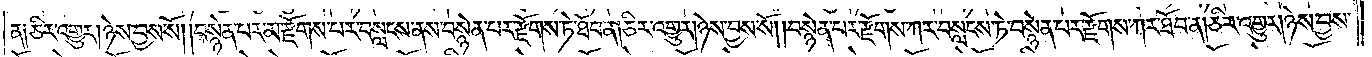ན༑ ཅིར་འགྱུར། ཉེས་བྱས་སོ། །བསྙེན་པར་མ་རྫོགས་པར་བསླངས་ནས་བསྙེན་པར་རྫོགས་ཏེ་ཐོབ་ན། ཅིར་འགྱུར། ཉེས་བྱས་སོ། །བསྙེན་པར་རྫོགས་ཀར་བསླངས་ཏེ་བསྙེན་པར་རྫོགས་ཀར་ཐོབ་ན། ཅིར་འགྱུར། ཉེས་བྱས་
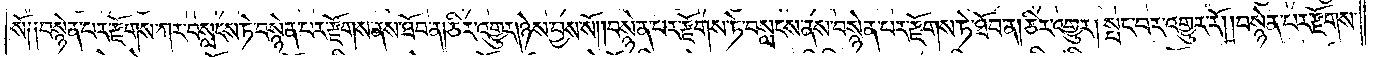སོ༑ ༑བསྙེན་པར་རྫོགས་ཀར་བསླངས་ཏེ་བསྙེན་པར་རྫོགས་ནས་ཐོབ་ན། ཅིར་འགྱུར། ཉེས་བྱས་སོ། །བསྙེན་པར་རྫོགས་ཏེ་བསླངས་ནས་བསྙེན་པར་རྫོགས་ཏེ་ཐོབ་ན། ཅིར་འགྱུར། སྤང་བར་འགྱུར་རོ། །བསྙེན་པར་རྫོགས་
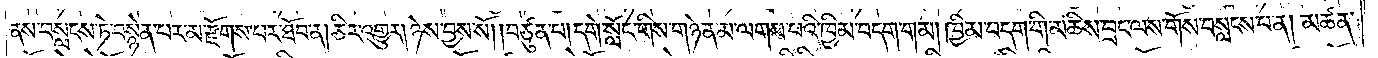ནས་བསླངས་ཏེ་བསྙེན་པར་མ་རྫོགས་པར་ཐོབ་ན། ཅིར་འགྱུར། ཉེས་བྱས་སོ། །བཙུན་པ། དགེ་སློང་གིས་གཉེན་མ་ལགས་པའི་ཁྱིམ་བདག་གམ། ཁྱིམ་བདག་གི་མཆིས་བྲང་ལས་གོས་བསླངས་པ་ན། མཚན་
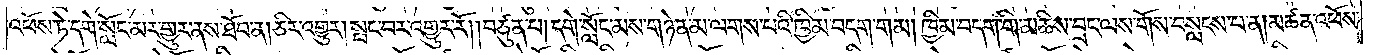འཕོས་ཏེ་དགེ་སློང་མར་གྱུར་ནས་ཐོབ་ན། ཅིར་འགྱུར། སྤང་བར་འགྱུར་རོ། །བཙུན་པ། དགེ་སློང་མས་གཉེན་མ་ལགས་པའི་ཁྱིམ་བདག་གམ། ཁྱིམ་བདག་གི་མཆིས་བྲང་ལས་གོས་བསླངས་པ་ན། མཚན་འཕོས་
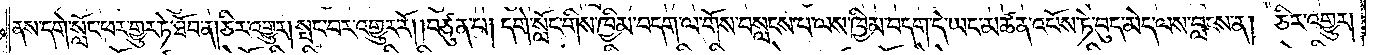ནས་དགེ་སློང་ཕར་གྱུར་ཏེ་ཐོབ་ན། ཅིར་འགྱུར། སྤང་བར་འགྱུར་རོ། །བཙུན་པ། དགེ་སློང་གིས་ཁྱིམ་བདག་ལ་གོས་བསླངས་པ་ལས་ཁྱིམ་བདག་དེ་ཡང་མཚན་འཕོས་ཏེ་བུད་མེད་ལས་བླངས་ན། ཅིར་འགྱུར།
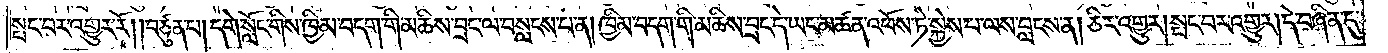སྤང་བར་འགྱུར་རོ། །བཙུན་པ། དགེ་སློང་གིས་ཁྱིམ་བདག་གིས་མཆིས་བྲང་ལ་བསླངས་པ་ན། ཁྱིམ་བདག་གིས་མཆིས་བྲང་དེ་ཡང་མཚན་འཕོས་ཏེ་སྐྱེས་པ་ལས་བླངས་ན། ཅིར་འགྱུར། སྤང་བར་འགྱུར། །དེ་བཞིན་དུ་
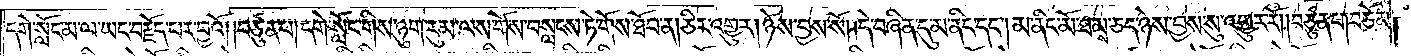དགེ་སློང་མ་ལ་ཡང་བརྗོད་པར་བྱའོ། །བཙུན་པ། དགེ་སློང་གིས་ཉུག་རུམ་ལས་གོས་བསླངས་ཏེ་གོས་ཐོབ་ན། ཅིར་འགྱུར། ཉེས་བྱས་སོ། །དེ་བཞིན་དུ་མ་ནིང་དང༌། མ་ནིང་མོ་ཐམས་ཅད་ཉེས་བྱས་སུ་འགྱུར་རོ། །བཙུན་པ། བཅོམ་
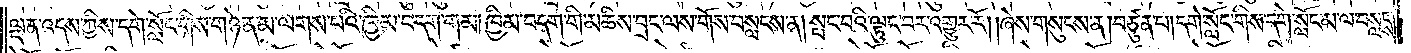ལྡན་འདས་ཀྱིས་དགེ་སློང་གིས་གཉེན་མ་ལགས་པའི་ཁྱིམ་བདག་གམ། ཁྱིམ་བདག་གི་མཆིས་བྲང་ལས་གོས་བསླངས་ན། སྤང་བའི་ལྟུང་བར་འགྱུར་རོ། །ཞེས་གསུངས་ན། བཙུན་པ། དགེ་སློང་གིས་དགེ་སློང་མ་ལ་བསླངས་
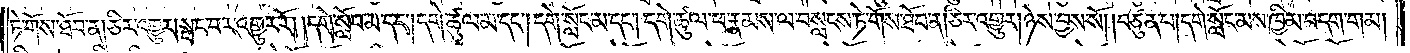ཏེ་གོས་ཐོབ་ན། ཅིར་འགྱུར། སྤང་བར་འགྱུར་རོ། །དགེ་སློབ་མ་དང༌། དགེ་ཚུལ་མ་དང༌། དགེ་སློང་མ་དང༌། དགེ་ཚུལ་ཕ་རྣམས་ལ་བསླངས་ཏེ་གོས་ཐོབ་ན། ཅིར་འགྱུར། ཉེས་བྱས་སོ། །བཙུན་པ། དགེ་སློང་མས་ཁྱིམ་བདག་གམ།
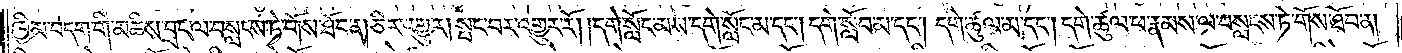ཁྱིམ་བདག་གི་མཆིས་བྲང་ལ་བསླངས་ཏེ་གོས་ཐོབ་ན། ཅིར་འགྱུར། སྤང་བར་འགྱུར་རོ། །དགེ་སློང་མས་དགེ་སློང་མ་དང༌། དགེ་སློབ་མ་དང༌། དགེ་ཚུལ་མ་དང༌། དགེ་ཚུལ་ཕ་རྣམས་ལ་བསླངས་ཏེ་གོས་ཐོབ་ན།
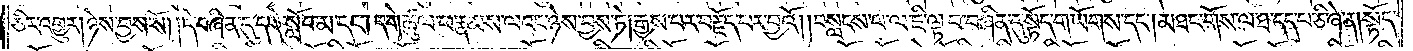ཅིར་འགྱུར། ཉེས་བྱས་སོ། །དེ་བཞིན་དུ་དགེ་སློབ་མ་དང༌། དགེ་ཚུལ་ཕ་རྣམས་ལའང་ཉེས་བྱས་ཏེ། རྒྱས་པར་བརྗོད་པར་བྱའོ། །བསླངས་པ་ལ་ཇི་ལྟ་བ་བཞིན་དུ་སྟོད་གཡོགས་དང༌། མཐང་གོས་ལ་ཐ་དད་པ་ཅི་ཞེ་ན། སྟོད་
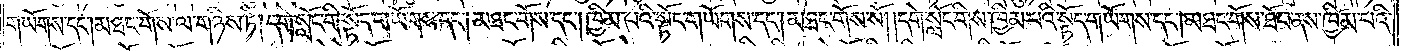གཡོགས་དང༌། མཐང་གོས་ལ་གཉིས་ཏེ། དགེ་སློང་གི་སྟོད་གཡོགས་དང༌། མཐང་གོས་དང༌། ཁྱིམ་པའི་སྟོད་གཡོགས་དང༌། མཐང་གོས་སོ། །དགེ་སློང་གིས་ཁྱིམ་པའི་སྟོད་གཡོགས་དང༌། །མཐང་གོས་ཐོབ་ནས་ཁྱིམ་པའི་
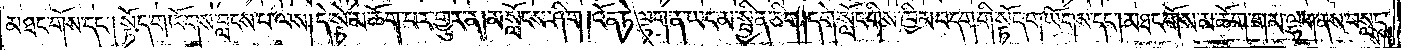མཐང་གོས་དང༌། སྟོད་གཡོགས་བླངས་པ་ལས། དེ་སྟེ་མ་ཆོག་པར་གྱུར་ན། མ་སློངས་ཤིག །འོན་ཏེ་ལྷག་ན་ཡང་མ་སྦྱིན་ཅིག །དགེ་སློང་གིས་ཁྱིམ་བདག་གི་སྟོད་གཡོགས་དང༌། མཐང་གོས་མ་ཆོག་གམ་ལྷག་ནས་བསླངས་
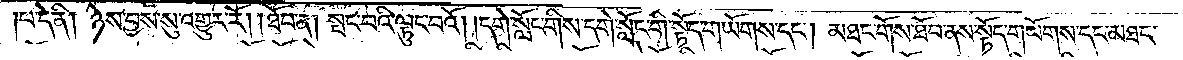པ་དེ་ནི། ཉེས་བྱས་སུ་འགྱུར་རོ། །ཐོབ་ན། སྤང་བའི་ལྟུང་བའོ། །དགེ་སློང་གིས་དགེ་སློང་གི་སྟོད་གཡོགས་དང༌། མཐང་གོས་ཐོབ་ནས་སྟོད་གཡོགས་དང་མཐང་
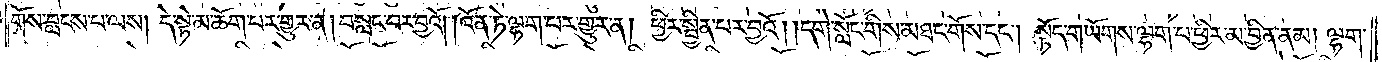གོས་བླངས་པ་ལས། དེ་སྟེ་མ་ཆོག་པར་གྱུར་ན། བསླང་བར་བྱའོ། །འོན་ཏེ་ལྷག་པར་གྱུར་ན། ཕྱིར་སྦྱིན་པར་བྱའོ། །དགེ་སློང་གིས་མཐང་གོས་དང༌། སྟོད་གཡོགས་ལྷག་པ་ཕྱིར་མ་བྱིན་ནམ། ལྷག་
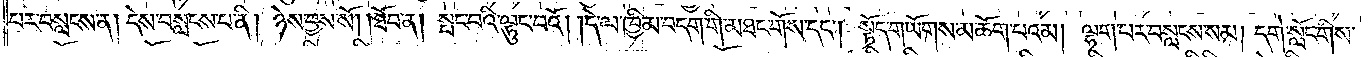པར་བསླངས་ན། དེས་བསླངས་པ་ནི། ཉེས་བྱས་སོ། །ཐོབ་ན། སྤང་བའི་ལྟུང་བའོ། །དེ་ལ་ཁྱིམ་བདག་གི་མཐང་གོས་དང༌། སྟོད་གཡོགས་མ་ཆོག་པའམ། ལྷག་པར་བསླངས་སམ། དགེ་སློང་གིས་
